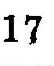17
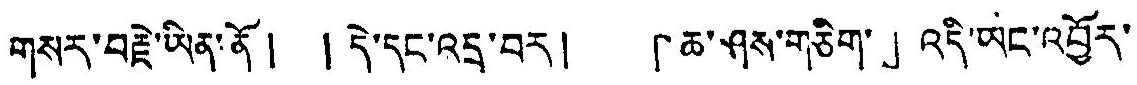གསར་བརྗེ་ཡིན་ནོ ། ། དེ་དང་འདྲ་བར། 「ཆ་ཤས་གཅིག་」འདི་ཡང་འབྱོར་
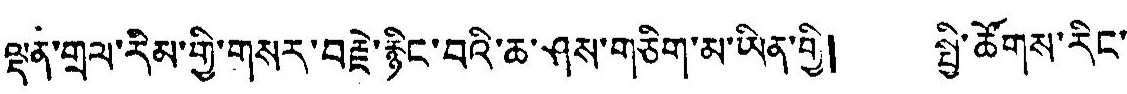ལྡན་གྲལ་རིམ་གྱི་གསར་བརྗེ་རྙིང་བའི་ཆ་ཤས་གཅིག་མ་ཡིན་གྱི། སྤྱི་ཚོགས་རིང་
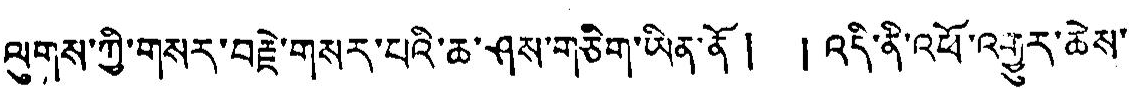ལུགས་ཀྱི་གསར་བརྗེ་གསར་པའི་ཆ་ཤས་གཅིག་ཡིན་ནོ ། ། འདི་ནི་འཕོ་འགྱུར་ཆེས་
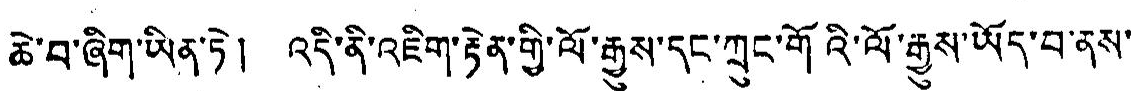ཆེ་བ་ཞིག་ཡིན་ཏེ། འདི་ནི་འཇིག་རྟེན་གྱི་ལོ་རྒྱུས་དང་ཀྲུང་གོའི་ལོ་རྒྱུས་ཡོད་པ་ནས་
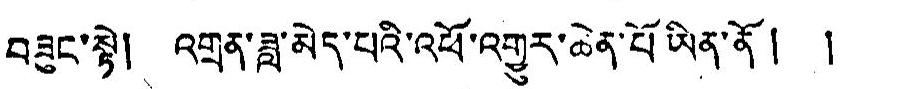བཟུང་སྟེ། འགྲན་ཟླ་མེད་པའི་འཕོ་འགྱུར་ཆེན་པོ་ཡིན་ནོ ། །
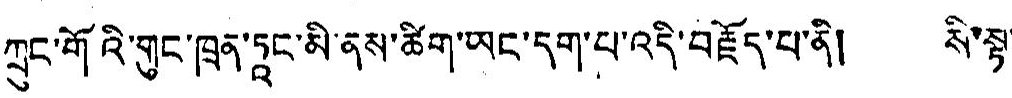ཀྲུང་གོའི་གུང་ཁྲན་ཏཱང་མི་ནས་ཚིག་ཡང་དག་པ་འདི་བརྗོད་པ་ནི། སི་སྟ་
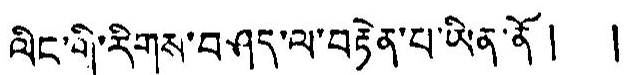ལིང་གི་རིགས་བཤད་ལ་བརྟེན་པ་ཡིན་ནོ། །
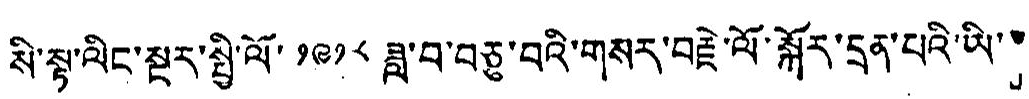སི་སྟ་ལིང་སྔར་སྤྱི་ལོ་ ༡༩༡༨ ཟླ་བ་བཅུ་བའི་གསར་བརྗེ་ལོ་སྐོར་དྲན་པའི་ཡི་་
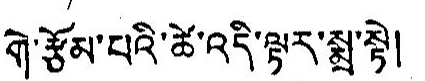གེ་རྩོམ་པའི་ཚེ་འདི་ལྟར་སྨྲ་སྟེ།
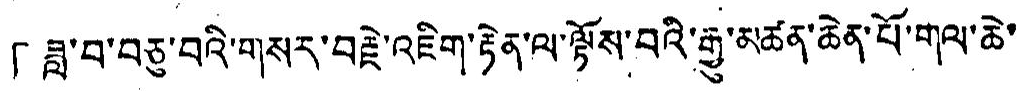「ཟླ་བ་བཅུ་བའི་གསར་བརྗེ་འཇིག་རྟེན་ལ་ལྟོས་བའི་རྒྱུ་མཚན་ཆེན་པོ་གལ་ཆེ་
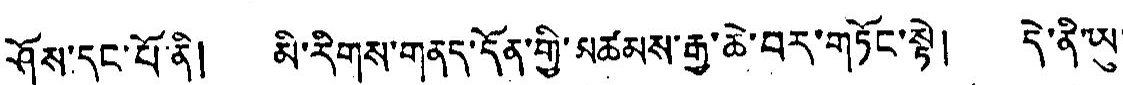ཤོས་དང་པོ་ནི། མི་རིགས་གནད་དོན་གྱི་མཚམས་རྒྱ་ཆེ་བར་གཏོང་སྟེ། དེ་ནི་ཡུ་
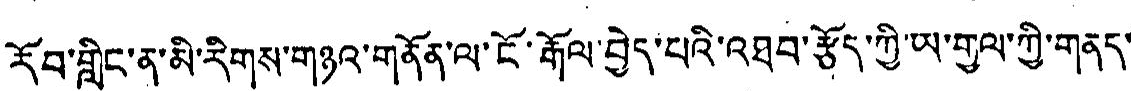རོབ་གླིང་ན་མི་རིགས་གཉའ་གནོན་ལ་ངོ་རྒོལ་བྱེད་པའི་འཐབ་རྩོད་ཀྱི་ཡ་གྱལ་ཀྱི་གནད་
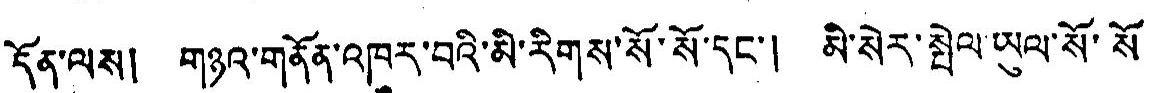དོན་ལས། གཉའ་གནོན་འཁུར་བའི་མི་རིགས་སོ་སོ་དང་། མི་སེར་སྤེལ་ཡུལ་སོ་སོ
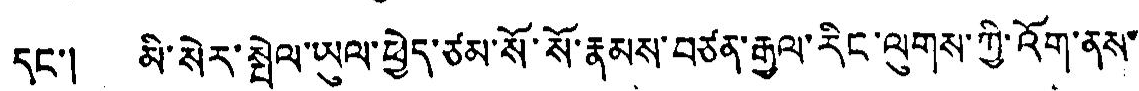དང་། མི་སེར་སྤེལ་ཡུལ་ཕྱེད་ཙམ་སོ་སོ་རྣམས་བཙན་རྒྱལ་རིང་ལུགས་ཀྱི་འོག་ནས་
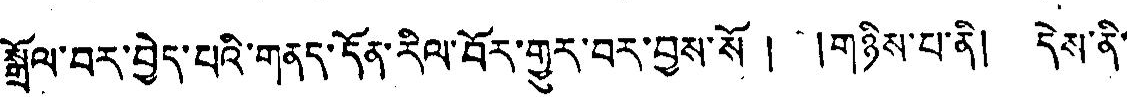སྒྲོལ་བར་བྱེད་པའི་གནད་དོན་རིལ་བོར་གྱུར་བར་བྱས་སོ ། །གཉིས་པ་ནི། དེས་ནི་
